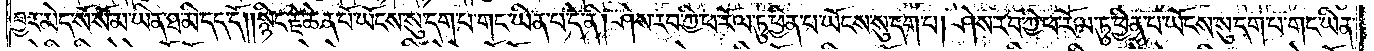བྱར་མེད་སོ་སོ་མ་ཡིན་ཐ་མི་དད་དོ། །སྙིང་རྗེ་ཆེན་པོ་ཡོངས་སུ་དག་པ་གང་ཡིན་པ་དེ་ནི། ཤེས་རབ་ཀྱི་ཕ་རོལ་ཏུ་ཕྱིན་པ་ཡོངས་སུ་དག་པ། ཤེས་རབ་ཀྱི་ཕ་རོལ་ཏུ་ཕྱིན་པ་ཡོངས་སུ་དག་པ་གང་ཡིན་
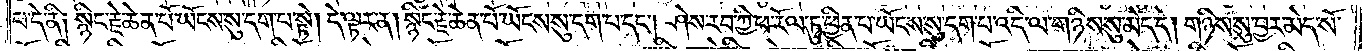པ་དེ་ནི༑ སྙིང་རྗེ་ཆེན་པོ་ཡོངས་སུ་དག་པ་སྟེ། དེ་ལྟར་ན། སྙིང་རྗེ་ཆེན་པོ་ཡོངས་སུ་དག་པ་དང༌། ཤེས་རབ་ཀྱི་ཕ་རོལ་ཏུ་ཕྱིན་པ་ཡོངས་སུ་དག་པ་འདི་ལ་གཉིས་སུ་མེད་དེ། གཉིས་སུ་བྱར་མེད་སོ་
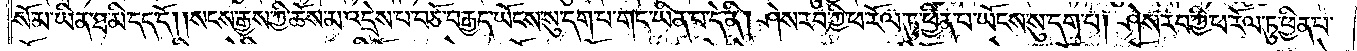སོ་མ་ཡིན་པ་མི་དད་དོ། །སངས་རྒྱས་ཀྱི་ཆོས་མ་འདྲེས་པ་བཅོ་བརྒྱད་ཡོངས་སུ་དག་པ་གང་ཡིན་པ་དེ་ནི། ཤེས་རབ་ཀྱི་ཕ་རོལ་ཏུ་ཕྱིན་པ་ཡོངས་སུ་དག་པ། ཤེས་རབ་ཀྱི་ཕ་རོལ་ཏུ་ཕྱིན་པ་
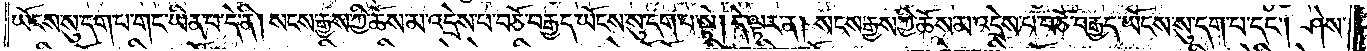ཡོངས་སུ་དག་པ་གང་ཡིན་པ་དེ་ནི། སངས་རྒྱས་ཀྱི་ཆོས་མ་འདྲེས་པ་བཅོ་བརྒྱད་ཡོངས་སུ་དག་པ་སྟེ། དེ་ལྟར་ན། སངས་རྒྱས་ཀྱི་ཆོས་མ་འདྲེས་པ་བཅོ་བརྒྱད་ཡོངས་སུ་དག་པ་དང༌། ཤེས་
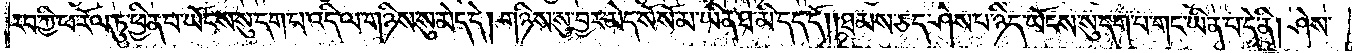རབ་ཀྱི་ཕ་རོལ་ཏུ་ཕྱིན་པ་ཡོངས་སུ་དག་པ་འདི་ལ་གཉིས་སུ་མེད་དེ། གཉིས་སུ་བྱར་མེད་སོ་སོ་མ་ཡིན་ཐ་མི་དད་དོ། །ཐམས་ཅད་ཤེས་པ་ཉིད་ཡོངས་སུ་དག་པ་གང་ཡིན་པ་དེ་ནི། ཤེས་
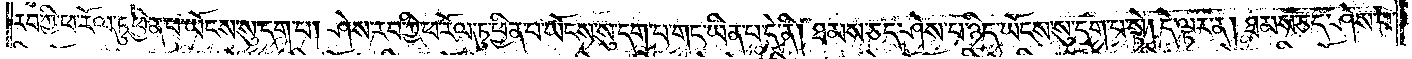རབ་ཀྱི་ཕ་རོལ་ཏུ་ཕྱིན་པ་ཡོངས་སུ་དག་པ། ཤེས་རབ་ཀྱི་ཕ་རོལ་ཏུ་ཕྱིན་པ་ཡོངས་སུ་དག་པ་ཡང་ཡིན་པ་དེ་ནི། ཐམས་ཅད་ཤེས་པ་ཉིད་ཡོངས་སུ་དག་པ་སྟེ། དེ་ལྟར་ན། ཐམས་ཅད་ཤེས་པ་
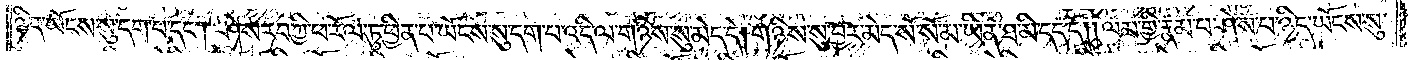ཉིད་ཡོངས་སུ་དག་པ་དང༌། ཤེས་རབ་ཀྱི་ཕ་རོལ་ཏུ་ཕྱིན་པ་ཡོངས་སུ་དག་པ་འདི་ལ་གཉིས་སུ་མེད་དེ། གཉིས་སུ་བྱར་མེད་སོ་སོ་མ་ཡིན་ཐ་མི་དད་དོ། །ལམ་གྱི་རྣམ་པ་ཤེས་པ་ཉིད་ཡོངས་སུ་
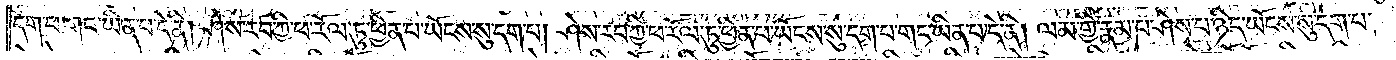དག་པ་གང་ཡིན་པ་དེ་ནི། ཤེས་རབ་ཀྱི་ཕ་རོལ་ཏུ་ཕྱིན་པ་ཡོངས་སུ་དག་པ། ཤེས་རབ་ཀྱི་ཕ་རོལ་ཏུ་ཕྱིན་པ་ཡོངས་སུ་དག་པ་གང་ཡིན་པ་དེ་ནི། ལམ་གྱི་རྣམ་པ་ཤེས་པ་ཉིད་ཡོངས་སུ་དག་པ་
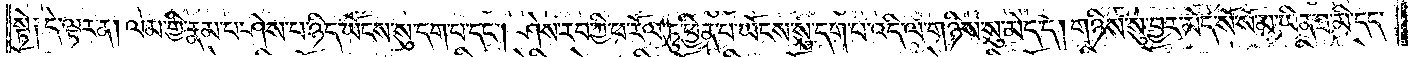སྟེ༑ དེ་ལྟར་ན། ལམ་གྱི་རྣམ་པ་ཤེས་པ་ཉིད་ཡོངས་སུ་དག་པ་དང༌། ཤེས་རབ་ཀྱི་ཕ་རོལ་ཏུ་ཕྱིན་པ་ཡོངས་སུ་དག་པ་འདི་ལ་གཉིས་སུ་མེད་དེ། གཉིས་སུ་བྱར་མེད་སོ་སོ་མ་ཡིན་ཐ་མི་དད་
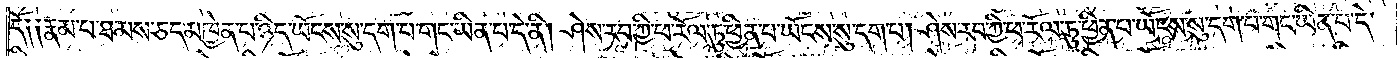དོ༑ ༑རྣམ་པ་ཐམས་ཅད་མཁྱེན་པ་ཉིད་ཡོངས་སུ་དག་པ་གང་ཡིན་པ་དེ་ནི། ཤེས་རབ་ཀྱི་ཕ་རོལ་ཏུ་ཕྱིན་པ་ཡོངས་སུ་དག་པ། ཤེས་རབ་ཀྱི་ཕ་རོལ་ཏུ་ཕྱིན་པ་ཡོངས་སུ་དག་པ་གང་ཡིན་པ་དེ་
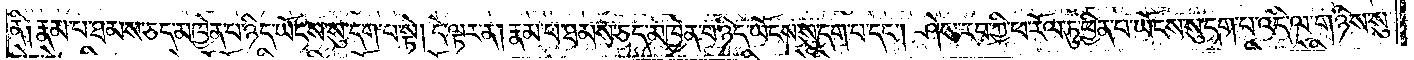ནི༑ རྣམ་པ་ཐམས་ཅད་མཁྱེན་པ་ཉིད་ཡོངས་སུ་དག་པ་སྟེ། དེ་ལྟར་ན། རྣམ་པ་ཐམས་ཅད་མཁྱེན་པ་ཉིད་ཡོངས་སུ་དག་པ་དང༌། ཤེས་རབ་ཀྱི་ཕ་རོལ་ཏུ་ཕྱིན་པ་ཡོངས་སུ་དག་པ་འདི་ལ་གཉིས་སུ་
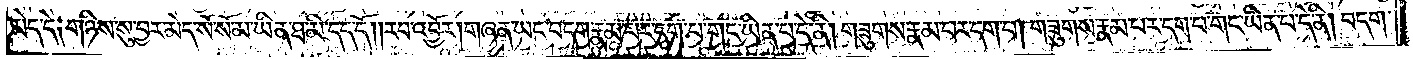མེད་དེ༑ གཉིས་སུ་བྱར་མེད་སོ་སོ་མ་ཡིན་ཐ་མི་དད་དོ། །རབ་འབྱོར། གཞན་ཡང་བདག་རྣམ་པར་དག་པ་གང་ཡིན་པ་དེ་ནི། གཟུགས་རྣམ་པར་དག་པ། གཟུགས་རྣམ་པར་དག་པ་གང་ཡིན་པ་དེ་ནི། བདག་
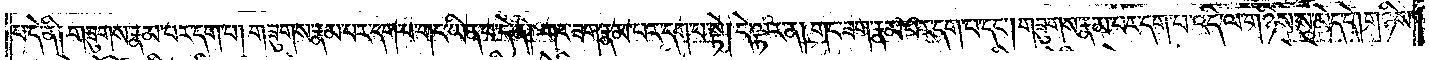པ་དེ་ནི༑ གཟུགས་རྣམ་པར་དག་པ། གཟུགས་རྣམ་པར་དག་པ་གང་ཡིན་པ་དེ་ནི། གང་ཟག་རྣམ་པར་དག་པ་སྟེ། དེ་ལྟར་ན། གང་ཟག་རྣམ་པར་དག་པ་དང༌། གཟུགས་རྣམ་པར་དག་པ་འདི་ལ་གཉིས་སུ་མེད་དེ། གཉིས་
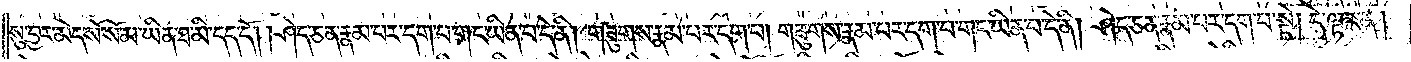སུ་བྱར་མེད་སོ་སོ་མ་ཡིན་ཐ་མི་དད་དོ། །ཤེད་ཅན་རྣམ་པར་དག་པ་གང་ཡིན་པ་དེ་ནི། གཟུགས་རྣམ་པར་དག་པ། གཟུགས་རྣམ་པར་དག་པ་གང་ཡིན་པ་དེ་ནི། ཤེད་ཅན་རྣམ་པར་དག་པ་སྟེ། དེ་ལྟར་ན།
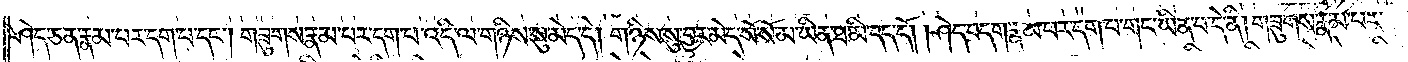ཤེད་ཅན་རྣམ་པར་དག་པ་དང༌། གཟུགས་རྣམ་པར་དག་པ་འདི་ལ་གཉིས་སུ་མེད་དེ། གཉིས་སུ་བྱར་མེད་སོ་སོ་མ་ཡིན་ཐ་མི་དད་དོ། །ཤེད་བདག་རྣམ་པར་དག་པ་གང་ཡིན་པ་དེ་ནི། གཟུགས་རྣམ་པར་
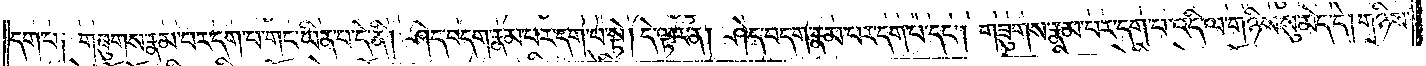དག་པ༑ གཟུགས་རྣམ་པར་དག་པ་གང་ཡིན་པ་དེ་ནི། ཤེད་བདག་རྣམ་པར་དག་པ་སྟེ། དེ་ལྟར་ན། ཤེད་བདག་རྣམ་པར་དག་པ་དང༌། གཟུགས་རྣམ་པར་དག་པ་འདི་ལ་གཉིས་སུ་མེད་དེ། གཉིས་
